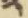༢
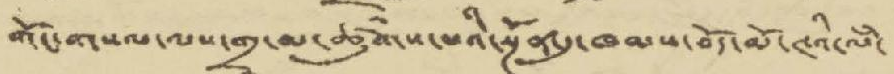གོང་གསལ་ལས་གྲྭ་མ་ཚུགས་པའི་སྔོན་དུ་ཁམས་བོད་མོ་ཊའི་ལཾ་
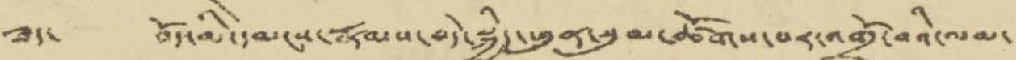ཟད་ བོད་མི་དམངས་རྣམས་བདེ་སྐྱིད་ཕུན་སུམ་ཚོགས་པར་འགྲོ་བའི་ལམ་
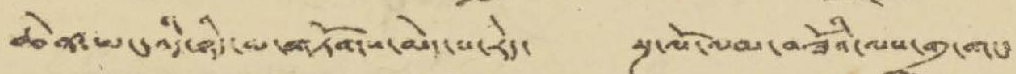ཆེན་ཡང་འདི་ཉིད་མ་གཏོགས་མེད་པ་རེད་ སྔ་ལོ་ལམ་བཟོའི་ལས་གྲྭ་གང་
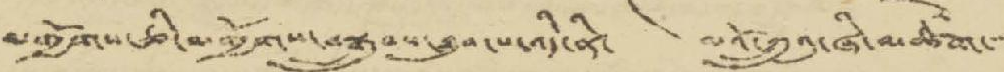མགྱོགས་ཅི་མགྱོགས་བསྒྲུབས་ཐུབ་པ་འདི་ནི་ མའོ་ཀྲུའུ་ཞི་མཆོག་་་་་
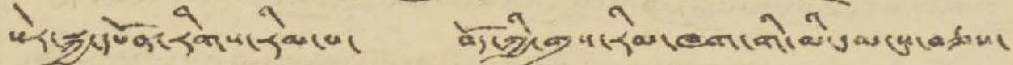སེར་སྐྱ་དཔོན་རིགས་རིམ་པ་ བོད་ཀྱི་གྲས་རིམ་ཁག་གི་མི་དམངས་བཅས་
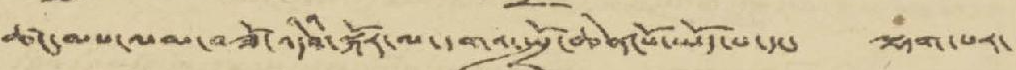ཚང་མས་ལམ་བཟོ་འདིའི་སྐོར་ལ་དགའ་སྤྲོ་ཆེན་པོ་ཡོད་པ་དང་ ལྷག་པར་
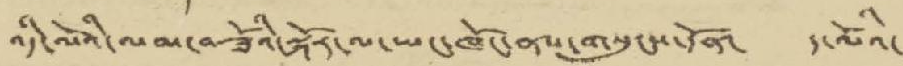འདི་ལོའི་ལམ་བཟོའི་སྐོར་ལ་ཡང་ཁོང་ནས་གསུངས་དོན་ ད་ལོའི་
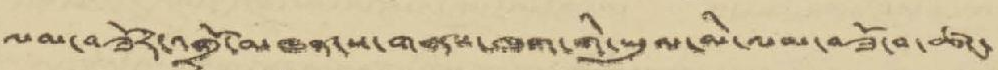ལམ་བཟོར་འགྲོ་མཁན་ས་གནས་ཁག་གི་ཡུལ་མི་ལམ་བཟོ་བ་ཚང་
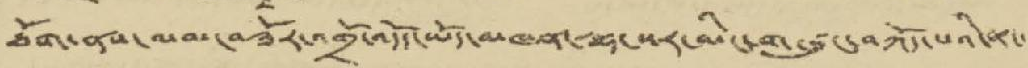ཐོག་ནས་ལམ་བཟོར་འགྲོ་འདོད་ཡོད་མཁན་ལྷ་སར་མིང་གཞུང་བཀོད་པའི་ནང་
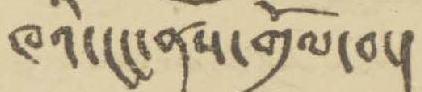ཁའི་ངང་ནས་གྲོལ་བ་།
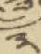༣
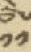༡༡
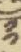༡༡
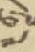༧
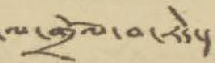ལ་གྲོལ་བ་རེད་།
